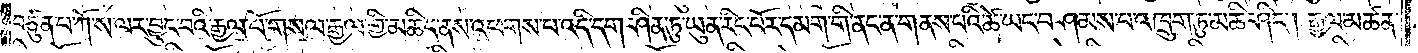བཙུན་པ་ཀོ་ས་ལར་བྱུང་བའི་རྒྱལ་པོ་གསལ་རྒྱལ་གྱི་མཆིད་ནས་འཕགས་པ་འདི་དག་ཤིན་ཏུ་ཡུན་རིང་པོར་དམག་གི་ནང་ན་གནས་པའི་ཚེ་ཡང་བཤམས་པ་འཁྲུག་ཏུ་མཆི་ཤིང༌། རྒྱལ་མཚན་
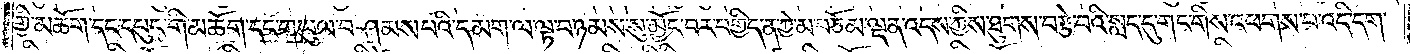གྱི་མཆོག་དང་དཔུང་གི་མཆོག་དང་གཡུལ་བཤམས་པའི་དམག་ལ་ལྟ་བ་ཉམས་སུ་མྱོང་བར་བགྱིད་ན་ཀྱེ་མ་བཅོམ་ལྡན་འདས་ཀྱིས་ཐུགས་བརྩེ་བའི་སླད་དུ་གང་གིས་འཕགས་པ་འདི་དག་
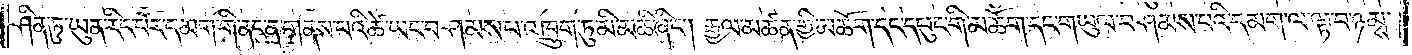ཤིན་ཏུ་ཡུན་རིང་པོར་དམག་གི་ནང་ན་གནས་པའི་ཚེ་ཡང་བཤམས་པ་འཁྲུག་ཏུ་མི་མཆི་ཞིང༌། རྒྱལ་མཚན་གྱི་མཆོག་དང་དཔུང་གི་མཆོག་དང་གཡུལ་བཤམས་པའི་དམག་ལ་ལྟ་བ་ཉམས་
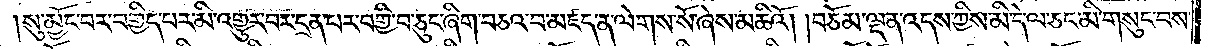སུ་མྱོང་བར་བགྱིད་པར་མི་འགྱུར་བར་དྲན་པར་བགྱི་བ་ཅུང་ཞིག་བཅའ་བ་མཛད་ན་ལེགས་སོ་ཞེས་མཆིའོ། །བཅོམ་ལྡན་འདས་ཀྱིས་མི་དེ་ལ་ཅང་མི་གསུང་པས་
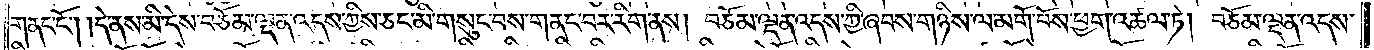གནང་ངོ༌། །དེ་ནས་མི་དེས་བཅོམ་ལྡན་འདས་ཀྱིས་ཅང་མི་གསུང་བས་གནང་བར་རིག་ནས། བཅོམ་ལྡན་འདས་ཀྱི་ཞབས་གཉིས་ལ་མགོ་བོས་ཕྱག་འཚལ་ཏེ། བཅོམ་ལྡན་འདས་
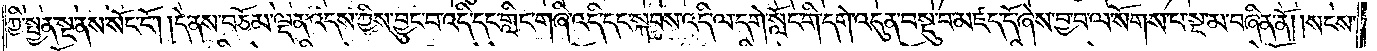ཀྱི་སྤྱན་སྔ་ནས་སོང་ངོ༌། །དེ་ནས་བཅོམ་ལྡན་འདས་ཀྱིས་བྱུང་བ་འདི་དང་གླིང་གཞི་འདི་དང་སྐབས་འདི་ལ་དགེ་སློང་གི་དགེ་འདུན་བསྡུ་བ་མཛད་དོ་ཞེས་བྱ་བ་ལ་སོགས་པ་སྔ་མ་བཞིན་ནོ། །སངས་
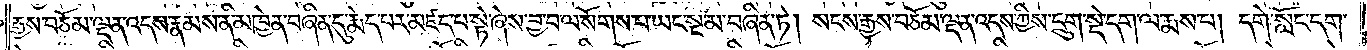རྒྱས་བཅོམ་ལྡན་འདས་རྣམས་ནི་མཁྱེན་བཞིན་དུ་རྨེད་པར་མཛད་པ་སྟེ་ཞེས་བྱ་བ་ལ་སོགས་པ་ཡང་སྔ་མ་བཞིན་ཏེ། སངས་རྒྱས་བཅོམ་ལྡན་འདས་ཀྱིས་དྲུག་སྡེ་དག་ལ་རྨས་པ། དགེ་སློང་དག་
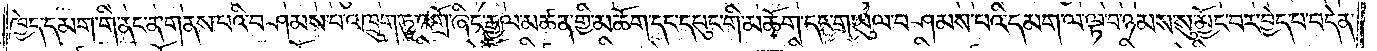ཁྱེད་དམག་གི་ནང་ན་གནས་པའི་བཤམས་པ་འཁྲུག་ཏུ་འགྲོ་ཞིང་རྒྱལ་མཚན་གྱི་མཆོག་དང་དཔུང་གི་མཆོག་དང་གཡུལ་བཤམས་པའི་དམག་ལ་ལྟ་བ་ཉམས་སུ་མྱོང་བར་བྱེད་པ་བདེན་
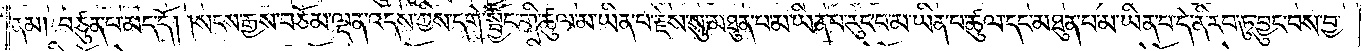ནམ། བཙུན་པ་མད་དོ། །སངས་རྒྱས་བཅོམ་ལྡན་འདས་ཀྱིས་དགེ་སྦྱོང་གི་ཚུལ་མ་ཡིན་པ་རྗེས་སུ་མཐུན་པ་མ་ཡིན་པ་རུང་བ་མ་ཡིན་པ་ཚུལ་དང་མཐུན་པ་མ་ཡིན་པ་དེ་ནི་རབ་ཏུ་བྱུང་བས་བྱ་
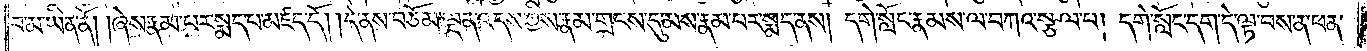བ་མ་ཡིན་ནོ། །ཞེས་རྣམ་པར་སྨད་པ་མཛད་དོ། །དེ་ནས་བཅོམ་ལྡན་འདས་ཀྱིས་རྣམ་གྲངས་དུ་མས་རྣམ་པར་སྨད་ནས། དགེ་སློང་རྣམས་ལ་བཀའ་སྩལ་པ། དགེ་སློང་དག་དེ་ལྟ་བས་ན་ཕན་
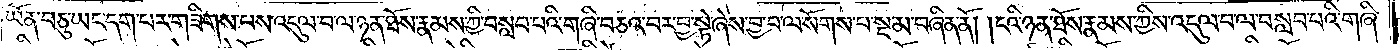ཡོན་བཅུ་ཡང་དག་པར་གཟིགས་པས་འདུལ་བ་ལ་ཉན་ཐོས་རྣམས་ཀྱི་བསླབ་པའི་གཞི་བཅའ་བར་བྱ་སྟེ་ཞེས་བྱ་བ་ལ་སོགས་པ་སྔ་མ་བཞིན་ནོ། །ངའི་ཉན་ཐོས་རྣམས་ཀྱིས་འདུལ་བ་ལ་བསླབ་པའི་གཞི་
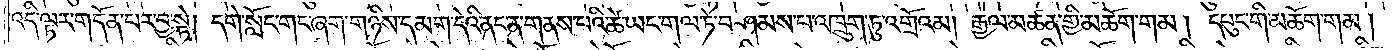འདི་ལྟར་གདོན་པར་བྱ་སྟེ། དགེ་སློང་གང་ཞག་གཉིས་དམག་དེའི་ནང་ན་གནས་པའི་ཚེ་ཡང་གལ་ཏེ་བཤམས་པ་འཁྲུག་ཏུ་འགྲོའམ། རྒྱལ་མཚན་གྱི་མཆོག་གམ། དཔུང་གི་མཆོག་གམ །
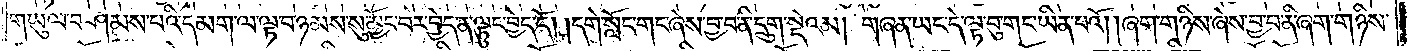གཡུལ་བཤམས་པའི་དམག་ལ་ལྟ་བ་ཉམས་སུ་མྱོང་བར་བྱེད་ན་ལྟུང་བྱེད་དོ། །དགེ་སློང་གང་ཞེས་བྱ་བ་ནི་དྲུག་སྡེའམ། གཞན་ཡང་དེ་ལྟ་བུ་གང་ཡིན་པའོ། །ཞག་གཉིས་ཞེས་བྱ་བ་ནི་ཞག་གཉིས་
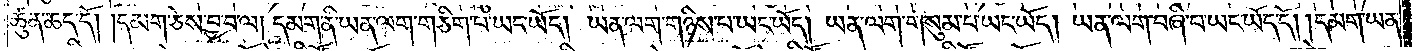ཚུན་ཆད་དོ། །དམག་ཅེས་བྱ་བ་ལ། དམག་ནི་ཡན་ལག་གཅིག་པ་ཡང་ཡོད། ཡན་ལག་གཉིས་པ་ཡང་ཡོད། ཡན་ལག་གསུམ་པ་ཡང་ཡོད། ཡན་ལག་བཞི་པ་ཡང་ཡོད་དོ། །དམག་ཡན་
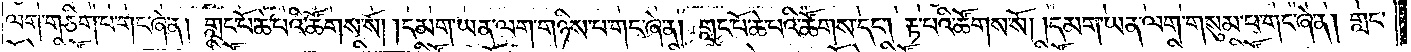ལག་གཅིག་པ་གང་ཞེ་ན། གླང་པོ་ཆེ་པའི་ཚོགས་སོ། །དམག་ཡན་ལག་གཉིས་པ་གང་ཞེ་ན། གླང་པོ་ཆེ་པའི་ཚོགས་དང༌། རྟ་པའི་ཚོགས་སོ། །དམག་ཡན་ལག་གསུམ་པ་གང་ཞེ་ན། གླང་
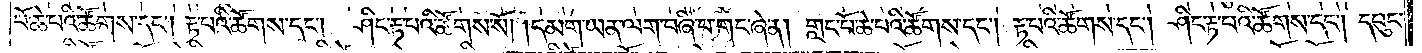པོ་ཆེ་པའི་ཚོགས་དང༌། རྟ་པའི་ཚོགས་དང༌། ཤིང་རྟ་པའི་ཚོགས་སོ། །དམག་ཡན་ལག་བཞི་པ་གང་ཞེ་ན། གླང་པོ་ཆེ་པའི་ཚོགས་དང༌། རྟ་པའི་ཚོགས་དང༌། ཤིང་རྟ་པའི་ཚོགས་དང༌། དཔུང་
